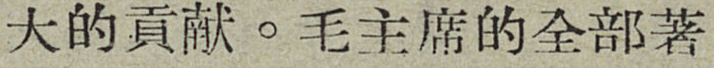大的貢献。毛主席的全部著
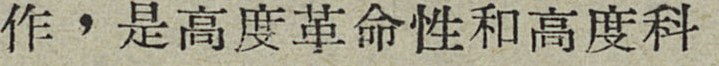作，是高度革命性和高度科
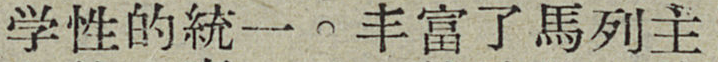学性的統一。丰富了馬列主
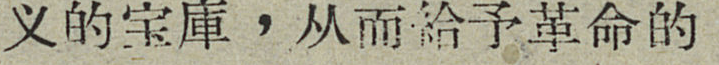义的宝庫，从而給予革命的
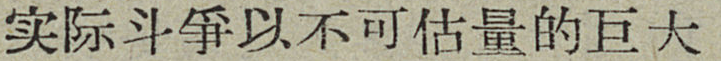实际斗爭以不可估量的巨大
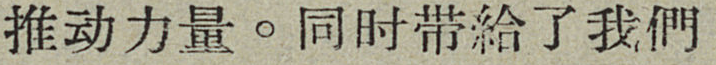推动力量。同时带給了我們
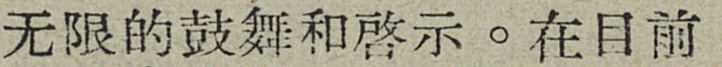无限的鼓舞和啓示。在目前
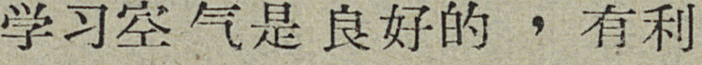学习空气是良好的，有利
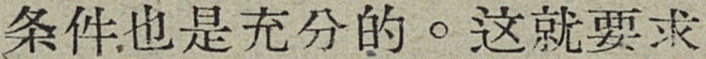条件也是充分的。这就要求
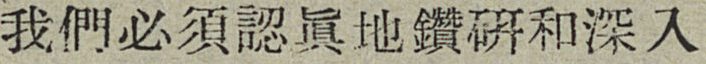我們必須認眞地鑽研和深入
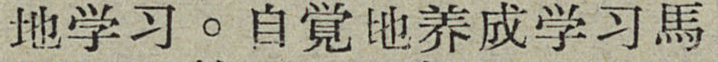地学习。自覚地养成学习馬
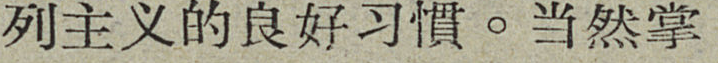列主义的良好习慣。当然掌
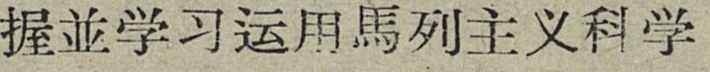握並学习运用馬列主义科学
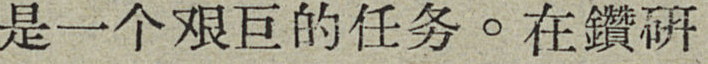十一个艰巨的任务。在鑽研
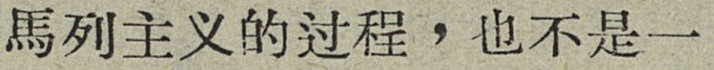馬列主义的过程，也不是一
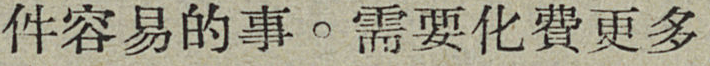件容易的事。需要化費更多
